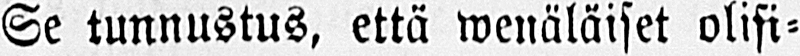Se tunnustus, että wenäläiset olisi-
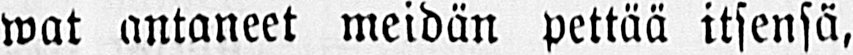wat antaneet meidän pettää itsensä,
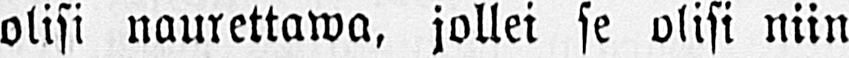olisi naurettawa, jollei se olisi niin
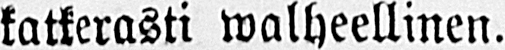katkerasti walheellinen.
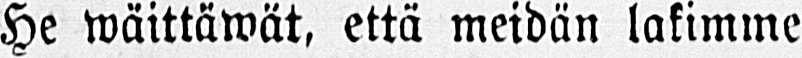He wäittäwät, että meidän lakimme
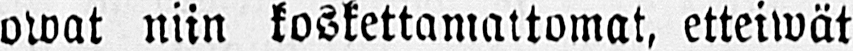owat niin koskettamattomat, etteiwät
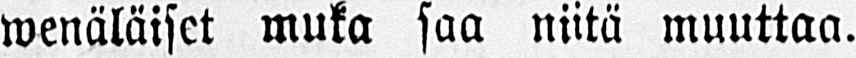wenäläiset muka saa niitä muuttaa.
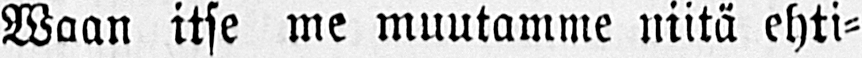waan itse me muutamme niitä ehti-
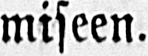miseen.
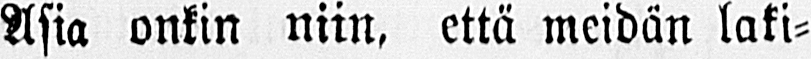Asia onkin niin, että meidän laki-
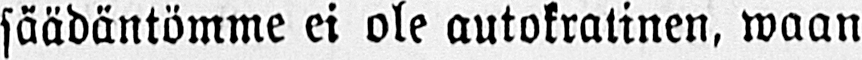säädäntömme ei ole autokratinen, waan
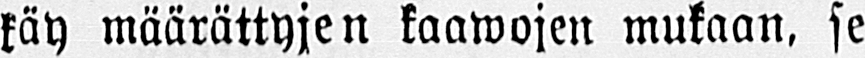käy määrättyjen kaawojen mukaan, se
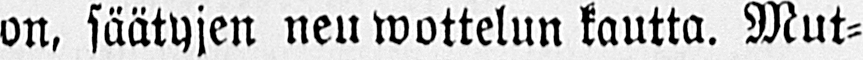on, säätyjen neu wottelun kautta. Mut-
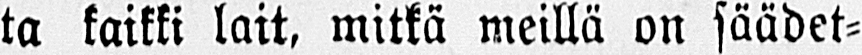ta kaikki lait, mitkä meillä on säädet-
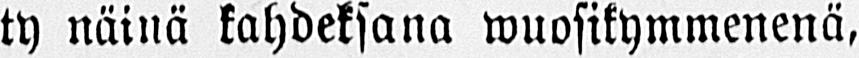ty näinä kahdeksana wuosikymmenenä,
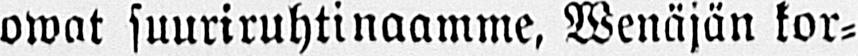owat suuriruhtinaamme, Wenäjän kor-
